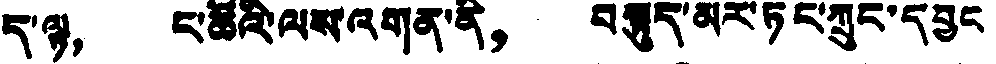ད་ལྟ， ང་ཚོའི་ལས་འགན་ནི， བསྟུད་མར་ཏང་ཀྲུང་དབྱང
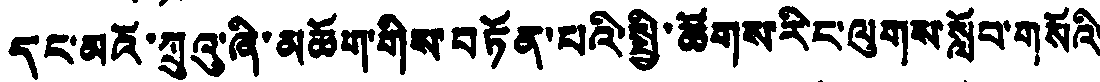དང་མའོ་ཀྲུའུ་ཞི་མཆོག་གིས་བཏོན་པའི་སྤྱི་ཚོགས་རིང་ལུགས་སློབ་གསོའི་
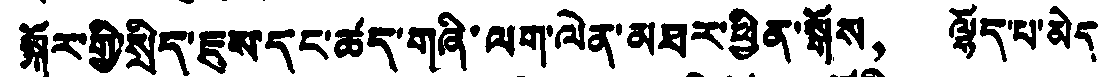སྐོར་གྱི་སྲིད་ཇུས་དང་ཚད་གཞི་ལག་ལེན་མཐར་ཕྱིན་སྒོས， ལྷོད་པ་མེད་
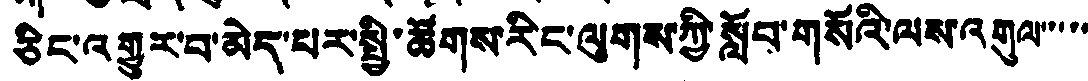ཅིང་འགྱུར་བ་མེད་པར་སྤྱི་ཚོགས་རིང་ལུགས་ཀྱི་སློབ་གསོའི་ལས་འགུལ་་་་་
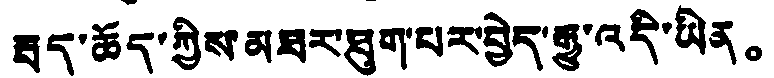རྦད་ཆོད་ཀྱིས་མཐར་ཐུག་པར་བྱེད་རྒྱུ་འདི་ཡིན。
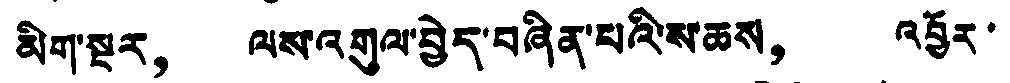མིག་སྔར， ལས་འགུལ་བྱེད་བཞིན་པའི་ས་ཆས， འབྱོར
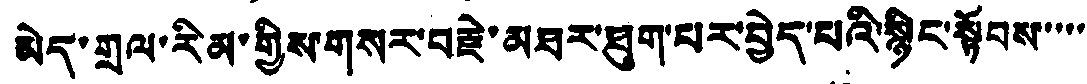མེད་གྲལ་རིམ་གྱིས་གསར་བརྗེ་མཐར་ཐུག་པར་བྱེད་པའི་སྙིང་སྟོབས་་་་་
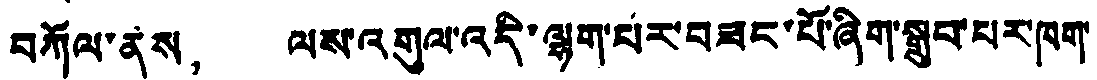བཀོལ་ནས， ལས་འགུལ་འདི་ལྷག་པར་བཟང་པོ་ཞིག་སྒྲུབ་པར་ཁག་
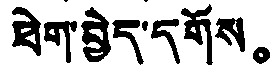ཐེག་བྱེད་དགོས。
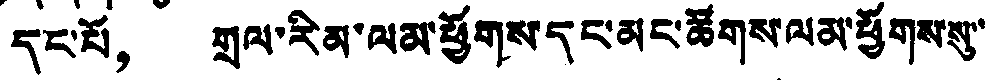དང་པོ， གྲལ་རིམ་ལམ་ཕྱོགས་དང་མང་ཚོགས་ལམ་ཕྱོགས་སུ་་
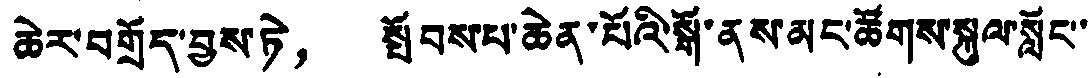ཆེར་བགྲོད་བྱས་ཏེ， སྤོབས་པ་ཆེན་པོའི་སྒོ་ནས་མང་ཚོགས་སྐུལ་སློང་་
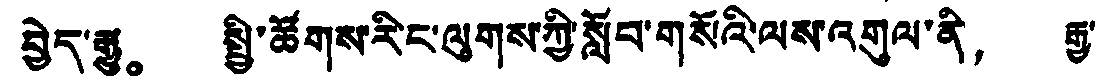བྱེད་རྒྱུ。 སྤྱི་ཚོགས་རིང་ལུགས་ཀྱི་སློབ་གསོའི་ལས་འགུལ་ནི， རྒྱ་
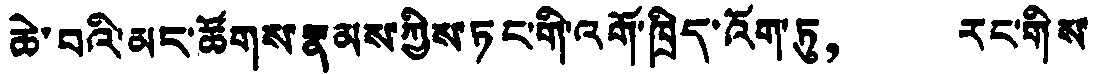ཆེ་བའི་མང་ཚོགས་རྣམས་ཀྱིས་ཏང་གི་འགོ་ཁྲིད་འོག་ཏུ， རང་གིས་
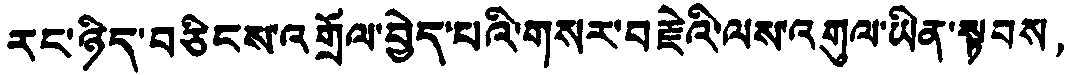རང་ཉིད་བཅིངས་འགྲོལ་བྱེད་པའི་གསར་བརྗེའི་ལས་འགུལ་ཡིན་སྟབས，
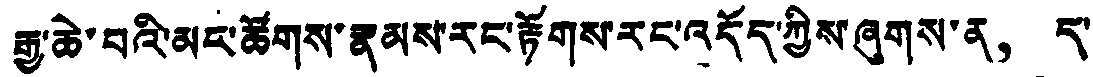རྒྱ་ཆེ་བའི་མང་ཚོགས་རྣམས་རང་རྟོགས་རང་འདོད་ཀྱིས་ཞུགས་ན， ད་
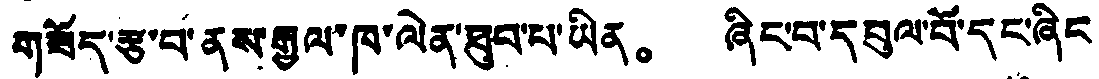གཟོད་རྩ་བ་ནས་རྒྱལ་ཁ་ལེན་ཐུབ་པ་ཡིན。 ཞིང་བ་དབུལ་བོ་དང་ཞིང
